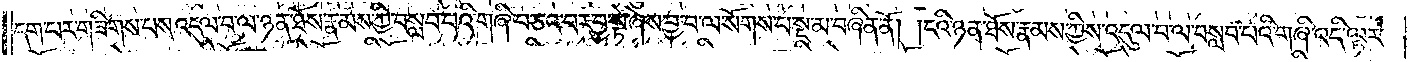དག་པར་གཟིགས་པས་འདུལ་བ་ལ་ཉན་ཐོས་རྣམས་ཀྱི་བསླབ་པའི་གཞི་བཅའ་བར་བྱ་སྟེ་ཞེས་བྱ་བ་ལ་སོགས་པ་སྔ་མ་བཞིན་ནོ། །ངའི་ཉན་ཐོས་རྣམས་ཀྱིས་འདུལ་བ་ལ་བསླབ་པའི་གཞི་འདི་ལྟར་
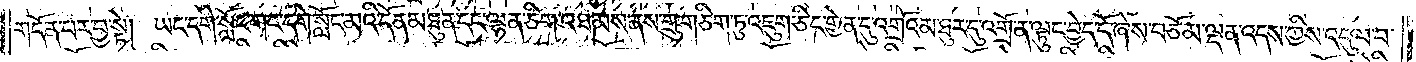གདོན་པར་བྱ་སྟེ། ཡང་དགེ་སློང་གང་དགེ་སློང་མའི་དོན་མཐུན་དང་ལྷན་ཅིག་འཐམས་ནས་གྲུ་གཅིག་ཏུ་འཇུག་ཅིང་གྱེན་དུ་འགྲོའམ་ཐུར་དུ་འགྲོ་ན་ལྟུང་བྱེད་དོ་ཞེས་བཅོམ་ལྡན་འདས་ཀྱིས་འདུལ་བ་
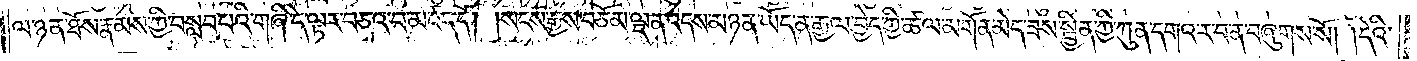ལ་ཉན་ཐོས་རྣམས་ཀྱི་བསླབ་པའི་གཞི་དེ་ལྟར་བཅའ་བ་མཛད་དོ། །སངས་རྒྱས་བཅོམ་ལྡན་འདས་མཉན་ཡོད་ན་རྒྱལ་བྱེད་ཀྱི་ཚལ་མགོན་མེད་ཟས་སྦྱིན་ཀྱི་ཀུན་དགའ་ར་བ་ན་བཞུགས་སོ། །དེའི་
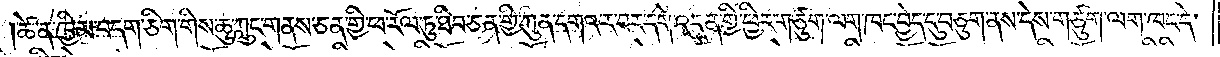ཚེ་ན་ཁྱིམ་བདག་ཅིག་གིས་ཆུ་ཀླུང་གནས་ཅན་གྱི་ཕ་རོལ་ཏུ་ཐིབ་ཅན་གྱི་ཀུན་དགའ་ར་བར་དགེ་འདུན་གྱི་ཕྱིར་གཙུག་ལག་ཁང་བྱེད་དུ་བཅུག་ནས་དེས་གཙུག་ལག་ཁང་དེ་
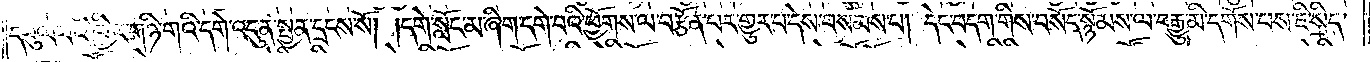དབུལ་བའི་ཕྱིར་གཉི་གའི་དགེ་འདུན་སྤྱན་དྲངས་སོ། །དགེ་སློང་མ་ཞིག་དགེ་བའི་ཕྱོགས་ལ་བརྩོན་པར་གྱུར་པ་དེས་བསམས་པ། དེང་བདག་གིས་བསོད་སྙོམས་ལ་བརྒྱུ་མི་དགོས་པས་ཇི་སྲིད་
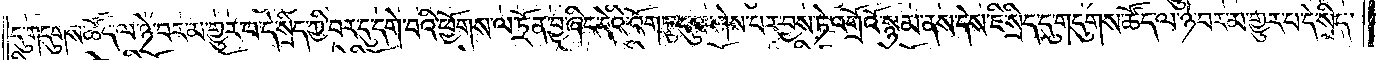དུ་གདུགས་ཚོད་ལ་ཉེ་བར་མ་གྱུར་བ་དེ་སྲིད་ཀྱི་བར་དུ་དགེ་བའི་ཕྱོགས་ལ་ཏྲོན་བྱ་ཞིང་དེའི་འོག་ཏུ་དུས་ཤེས་པར་བྱས་ཏེ་འགྲོའོ་སྙམ་ནས་དེས་ཇི་སྲིད་དུ་གདུགས་ཚོད་ལ་ཉེ་བར་མ་གྱུར་པ་དེ་སྲིད་
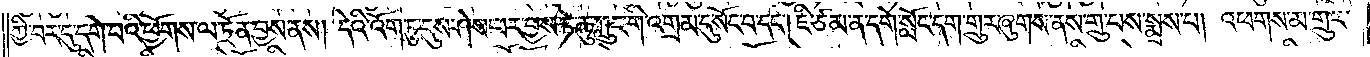ཀྱི་བར་དུ་དགེ་བའི་ཕྱོགས་ལ་ཏྲོན་བྱས་ནས། དེའི་འོག་ཏུ་དུས་ཤེས་པར་བྱས་ཏེ་ཆུ་ཀླུང་གི་འགྲམ་དུ་སོང་བ་དང༌། ཇི་ཙམ་ན་དགེ་སློང་དག་གྲུར་ཞུགས་ནས་གྲུ་པས་སྨྲས་པ། འཕགས་མ་གྲུར་
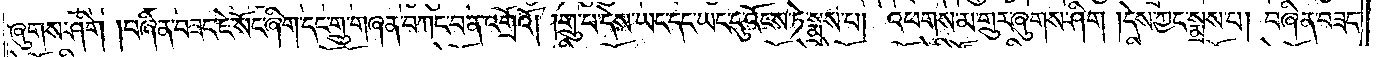ཞུགས་ཤིག །བཞིན་བཟང་ཇེ་སོང་ཞིག་དང་གྲུ་གཞན་བཀང་བ་ན་འགྲོའོ། །གྲུ་པ་དེས་ཡང་དང་ཡང་དུ་འོངས་ཏེ་སྨྲས་པ། འཕགས་མ་གྲུར་ཞུགས་ཤིག །དེས་ཀྱང་སྨྲས་པ། བཞིན་བཟང་
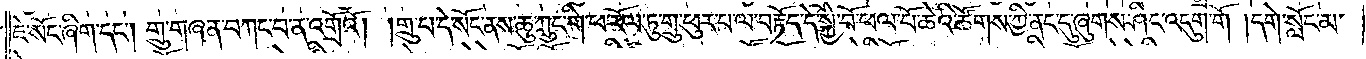ཇེ་སོང་ཞིག་དང༌། གྲུ་གཞན་བཀང་པ་ན་འགྲོའོ། །གྲུ་པ་དེ་སོང་ནས་ཆུ་ཀླུང་གི་ཕ་རོལ་ཏུ་གྲུ་ཕུར་པ་ལ་བརྟོད་དེ་སྐྱེ་བོ་ཕལ་པོ་ཆེའི་ཚོགས་ཀྱི་ནང་དུ་ཞུགས་ཤིང་འདུག་གོ །དགེ་སློང་མ་
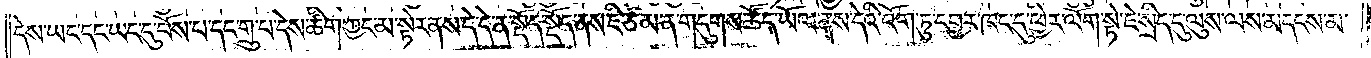དེས་ཡང་དང་ཡང་དུ་བོས་པ་དང་གྲུ་པ་དེས་ཚིག་ཀྱང་མ་སྟེར་ནས་དེ་དེ་ན་སྡོད་སྡོད་ནས་ཇི་ཙམ་ན་གདུགས་ཚོད་ཡོལ་ནས་དེའི་འོག་ཏུ་དབྱར་ཁང་དུ་ཕྱིར་ལོག་སྟེ་ཇེ་སྲིད་དུ་ལུས་ལས་མ་མདངས་མ་
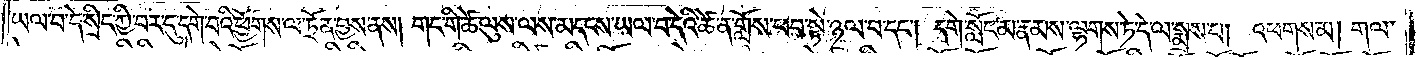ཡལ་བ་དེ་སྲིད་ཀྱི་བར་དུ་དགེ་བའི་ཕྱོགས་ལ་ཏྲོན་བྱས་ནས། གང་གི་ཚེ་ལུས་ལས་མདངས་ཡལ་བ་དེའི་ཚེ་ན་གློས་ཕབ་སྟེ་ཉལ་བ་དང༌། དགེ་སློང་མ་རྣམས་ལྷགས་ཏེ་དེ་ལ་སྨྲས་པ། འཕགས་མ། གལ་
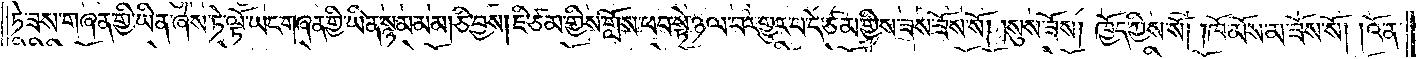ཏེ་ཟས་གཞན་གྱི་ཡིན་ཞེས་ཏེ་ལྟོ་ཡང་གཞན་གྱི་ཡིན་སྙམ་མམ། ཅི་བྱས། ཇི་ཙམ་གྱིས་གློས་ཕབ་སྟེ་ཉལ་བར་གྱུར་པ་དེ་ཙམ་གྱིས་ཟས་ཟོས་སོ། །སུས་ཟོས། ཁྱོད་ཀྱིས་སོ། །ཁོ་མོས་མ་ཟོས་སོ། །འོ་ན་
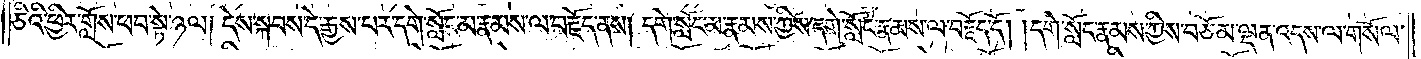ཅིའི་ཕྱིར་གློས་ཕབ་སྟེ་ཉལ། དེས་སྐབས་དེ་རྒྱས་པར་དགེ་སློང་མ་རྣམས་ལ་བརྗོད་ནས། དགེ་སློང་མ་རྣམས་ཀྱིས་དགེ་སློང་རྣམས་ལ་བརྗོད་དོ། །དགེ་སློང་རྣམས་ཀྱིས་བཅོམ་ལྡན་འདས་ལ་གསོལ་
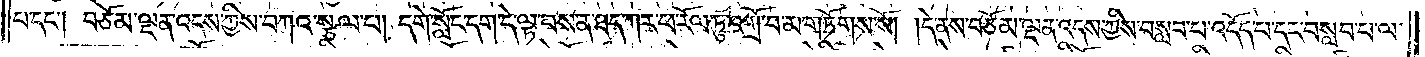པ་དང༌། བཅོམ་ལྡན་འདས་ཀྱིས་བཀའ་སྩལ་པ། དགེ་སློང་དག་དེ་ལྟ་བས་ན་ཐད་ཀར་ཕ་རོལ་ཏུ་འགྲོ་བ་མ་གཏོགས་སོ། །དེ་ནས་བཅོམ་ལྡན་འདས་ཀྱིས་བསླབ་པ་འདོད་པ་དང་བསླབ་པ་ལ་
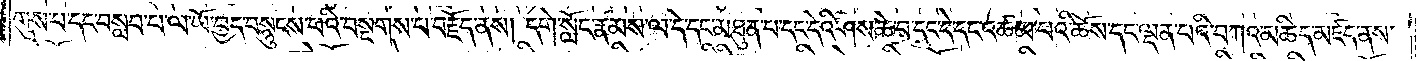གུས་པ་དང་བསབ་པ་ལ་ཡོ་བྱད་བསྙུངས་པའི་བསྔགས་པ་བརྗོད་ནས། དགེ་སློང་རྣམས་ལ་དེ་དང་མཐུན་པ་དང་དེའི་ཤས་ཆེ་བ་དང་དེ་དང་འཚམ་པའི་ཆོས་དང་ལྡན་པའི་བཀའ་མཆིད་མཛད་ནས་
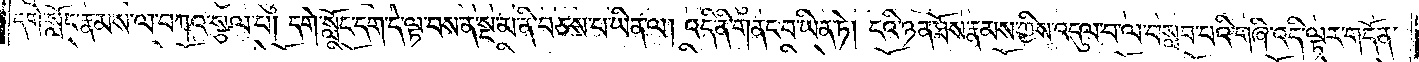དགེ་སློང་རྣམས་ལ་བཀའ་སྩལ་པ། དགེ་སློང་དག་དེ་ལྟ་བས་ན་སྔ་མ་ནི་བཅས་པ་ཡིན་ལ། འདི་ནི་གནང་བ་ཡིན་ཏེ། ངའི་ཉན་ཐོས་རྣམས་ཀྱིས་འདུལ་བ་ལ་བསླབ་པའི་གཞི་འདི་ལྟར་གདོན་
